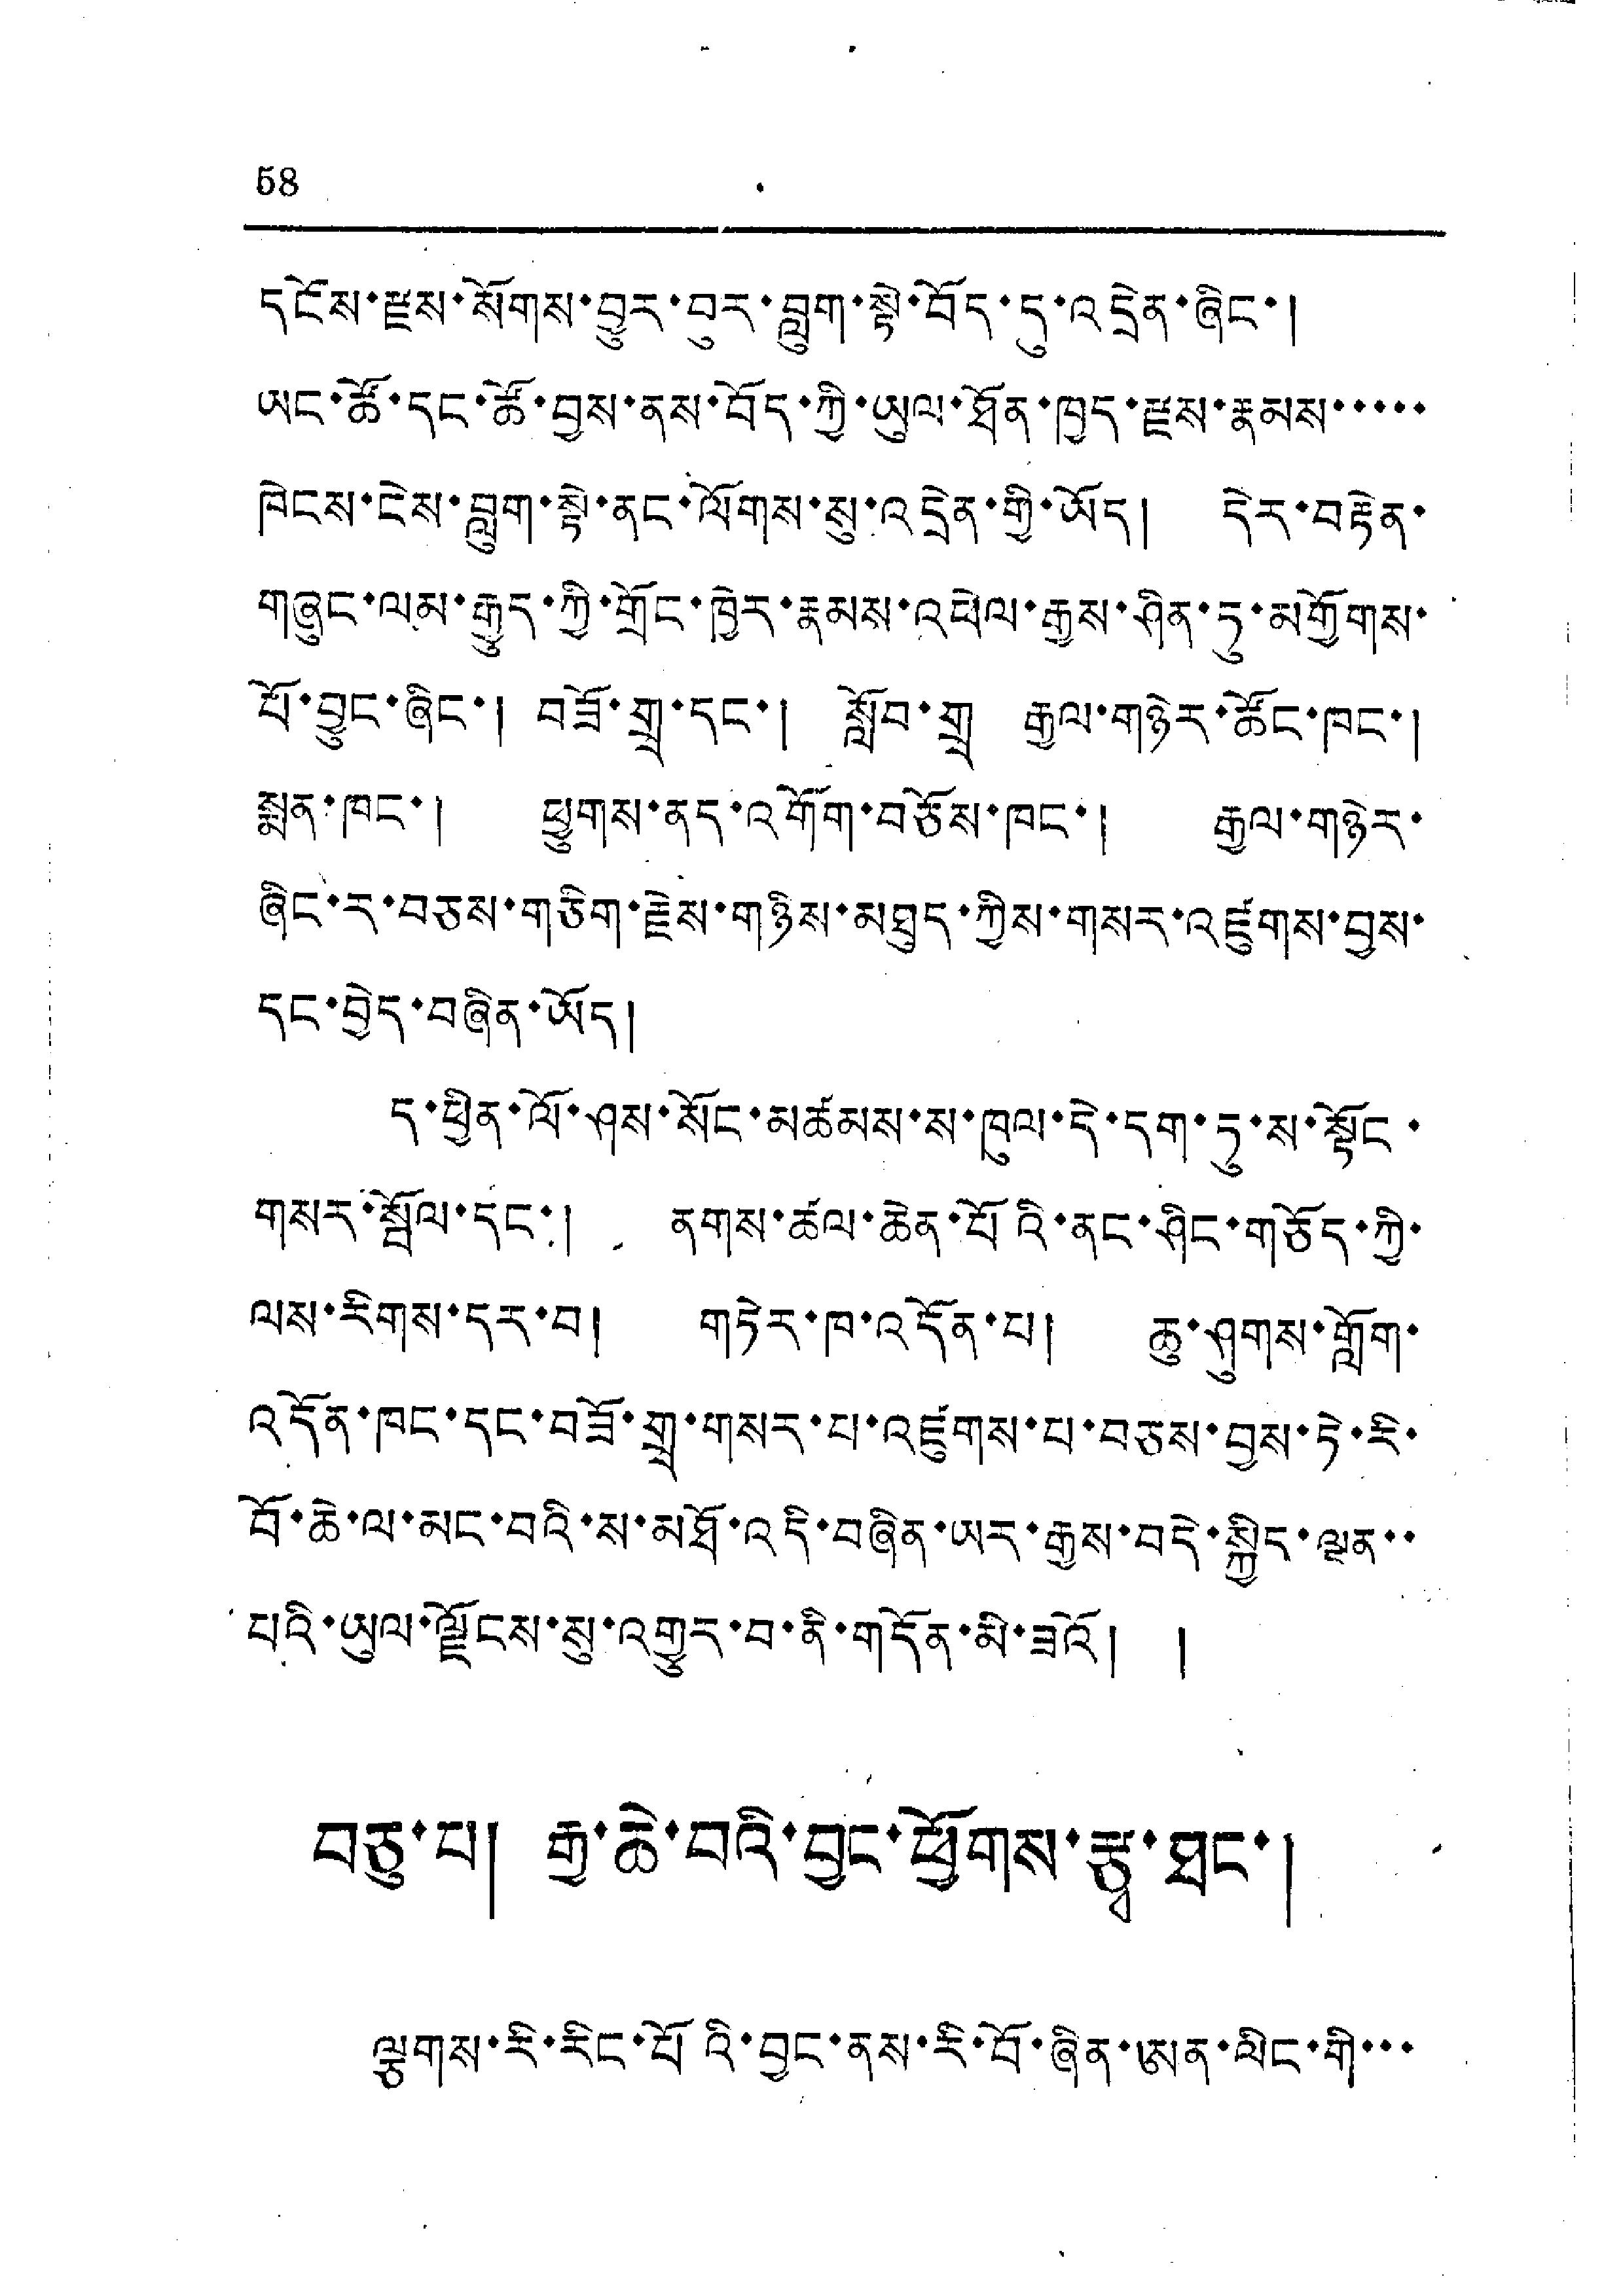58
དངོས་རྫས་སོགས་བྱུར་བར་བླག་སྟེ་བོད་དུ་འདྲེན་ཞིང་།
ཡང་ཚོ་དང་ཚོ་བྱས་ནས་བོད་ཀྱི་ཡུལ་ཐོན་ཁྱད་རྫས་རྣམས་་་་་
ཁེངས་ངེས་བླུག་སྟེ་ནང་ལོགས་སུ་འདྲེན་གྱི་ཡོད། དེར་བརྟེན་
གཞུང་ལམ་རྒྱུད་ཀྱི་གྲོང་ཁྱེར་རྣམས་འཕེལ་རྒྱུས་ཤིན་ཏུ་མགྱོགས་
པོ་བྱུང་ཞིང་། བཟོ་གྲྭ་དང་། སློབ་གྲྭ རྒྱལ་གཉེར་ཚོང་ཁང་།
སྨན་ཁང་། ཕྱུགས་ནད་འགོག་བཅོས་ཁང་། རྒྱལ་གཉེར་
ཞིང་ར་བཅས་གཅིག་རྗེས་གཉིས་མཐུད་ཀྱིས་གསར་འཛུགས་བྱས་
དང་བྱེད་བཞིན་ཡོད།
ད་ཕྱིན་ལོ་ཤས་སོང་མཚམས་ས་ཁུལ་དེ་དག་ཏུ་ས་སྟོང་
གསར་སྦོལ་དང་། ནགས་ཚལ་ཆེན་པོའི་ནང་ཤིང་གཅོད་ཀྱི་
ལས་རིགས་དར་བ། གཏེར་ཁ་འདོན་པ། ཆུ་ཤུགས་གློག་
འདོན་ཁང་དང་བཟོ་གྲྭ་གསར་པ་འཛུགས་པ་བཅས་བྱས་ཏེ་རི་
བོ་ཆེ་ལ་མང་བའི་ས་མཐོ་འདི་བཞིན་ཡར་རྒྱས་བདེ་སྐྱིད་ལྡན་་
པའི་ཡུལ་ལྗོངས་སུ་འགྱུར་བ་ནི་གདོན་མི་ཟའོ། །
བཅུ་པ། རྒྱ་ཆེ་བའི་བྱང་ཕྱོགས་རྩྭ་ཐང་།
ལྕགས་རི་རིང་པོའི་བྱང་ནས་རི་བོ་ཞིན་ཨན་ལིང་གི་་་
